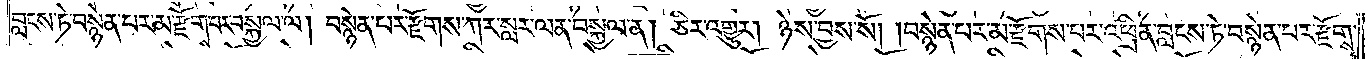བླངས་ཏེ་བསྙེན་པར་མ་རྫོགས་པར་བསྐྱལ་ལ། བསྙེན་པར་རྫོགས་ཀར་སླར་ལན་བསྐྱལ་ན། ཅིར་འགྱུར། ཉེས་བྱས་སོ། །བསྙེན་པར་མ་རྫོགས་པར་འཕྲིན་བླངས་ཏེ་བསྙེན་པར་རྫོགས་
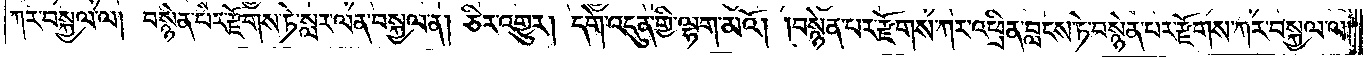ཀར་བསྐྱལ་ལ། བསྙེན་པར་རྫོགས་ཏེ་སླར་ལན་བསྐྱལ་ན། ཅིར་འགྱུར། དགེ་འདུན་གྱི་ལྷག་མའོ། །བསྙེན་པར་རྫོགས་ཀར་འཕྲིན་བླངས་ཏེ་བསྙེན་པར་རྫོགས་ཀར་བསྐྱལ་ལ༎
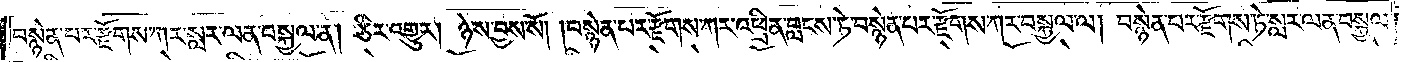བསྙེན་པར་རྫོགས་ཀར་སླར་ལན་བསྐྱལ་ན། ཅིར་འགྱུར། ཉེས་བྱས་སོ། །བསྙེན་པར་རྫོགས་ཀར་འཕྲིན་བླངས་ཏེ་བསྙེན་པར་རྫོགས་ཀར་བསྐྱལ་ལ། བསྙེན་པར་རྫོགས་ཏེ་སླར་ལན་བསྐྱལ་
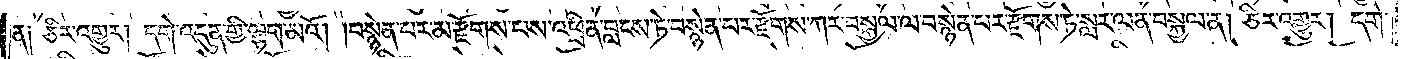ན༑ ཅིར་འགྱུར། དགེ་འདུན་གྱི་ལྷག་མའོ། །བསྙེན་པར་མ་རྫོགས་པས་འཕྲིན་བླངས་ཏེ་བསྙེན་པར་རྫོགས་ཀར་བསྐྱལ་ལ་བསྙེན་པར་རྫོགས་ཏེ་སླར་ལན་བསྐྱལ་ན། ཅིར་འགྱུར། དགེ་
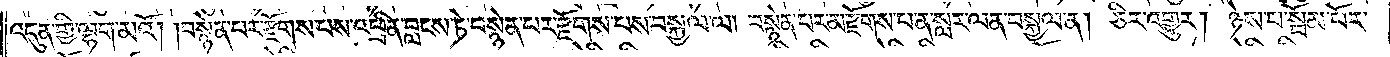འདུན་གྱི་ལྷག་མའོ། །བསྙེན་པར་རྫོགས་པས་འཕྲིན་བླངས་ཏེ་བསྙེན་པར་རྫོགས་པས་བསྐྱལ་ལ། བསྙེན་པར་མ་རྫོགས་པ་ན་སླར་ལན་བསྐྱལ་ན། ཅིར་འགྱུར། ཉེས་པ་སྦོམ་པོར་
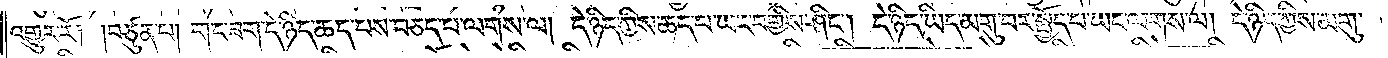འགྱུར་རོ། །བཙུན་པ། གང་ཟག་དེ་ཉིད་ཆད་པས་བཅད་པ་ལགས་ལ། དེ་ཉིད་ཀྱིས་ཆད་པ་ཡང་བགྱིད་ཤིང༌། དེ་ཉིད་ཡིད་མགུ་བར་སྤྱོད་པ་ཡང་ལགས་ལ། དེ་ཉིད་ཀྱིས་མགུ་
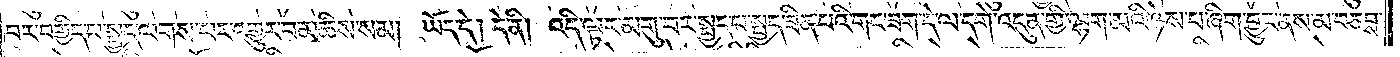བར་བགྱིད་པ་སྤྱད་ལགས་པར་འགྱུར་བ་མཆིས་སམ། ཡོད་དེ། དེ་ནི། འདི་ལྟར་མགུ་བར་སྤྱད་པ་སྤྱད་ཟིན་པའི་གང་ཟག་དེ་ལ་དགེ་འདུན་གྱི་ལྷག་མའི་ཉེས་པ་ཞིག་བྱུང་ནས་མ་བཅབས་
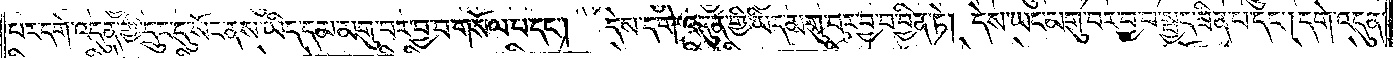པར་དགེ་འདུན་གྱི་དྲུང་དུ་སོང་ནས་ཡིད་དམ་མགུ་བར་བྱ་བ་གསོལ་བ་དང༌།<gap>དེས་དགེ་འདུན་གྱི་ཡིད་མགུ་བར་བྱ་བ་བྱིན་ཏེ། དེས་ཡང་མགུ་བར་བྱ་བ་སྤྱད་ཟིན་པ་དང༌། དགེ་འདུན་
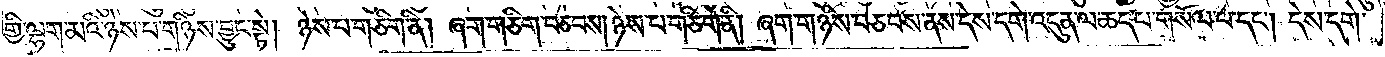གྱི་ལྷག་མའི་ཉེས་པ་གཉིས་བྱུང་སྟེ། ཉེས་པ་གཅིག་ནི། ཞག་གཅིག་བཅབས། ཉེས་པ་གཅིག་ནི། ཞག་གཉིས་བཅབས་ནས་དེས་དགེ་འདུན་ལ་ཆད་པ་གསོལ་པ་དང༌། དེས་དགེ་
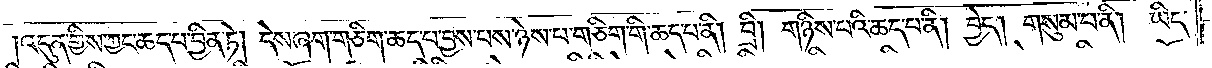།འདུན་གྱིས་ཀྱང་ཆད་པ་བྱིན་ཏེ། དེས་ཞག་གཅིག་ཆད་པ་བྱས་པས་ཉེས་པ་གཅིག་གི་ཆད་པ་ནི། བྲི། གཉིས་པའི་ཆད་པ་ནི། བྱེད། གསུམ་པ་ནི། ཡིད་
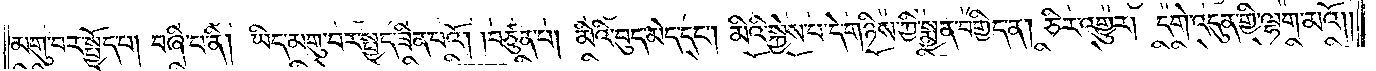མགུ་བར་སྤྱོད་པ། བཞི་པ་ནི། ཡིད་མགུ་བར་སྤྱད་ཟིན་པའོ། །བཙུན་པ། མིའི་བུད་མེད་དང༌། མིའི་སྐྱེས་པ་དེ་གཉིས་ཀྱི་སྨྱན་བགྱིད་ན། ཅིར་འགྱུར། དགེ་འདུན་གྱི་ལྷག་མའོ། །
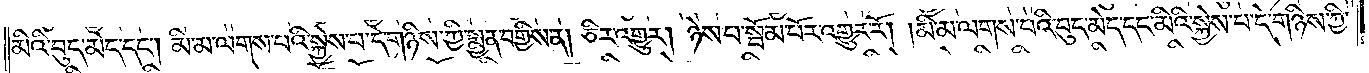མིའི་བུད་མེད་དང༌། མི་མ་ལགས་པའི་སྐྱེས་པ་དེ་གཉིས་ཀྱི་སྨྱན་བགྱིས་ན། ཅིར་འགྱུར། ཉེས་པ་སྦོམ་པོར་འགྱུར་རོ། །མི་མ་ལགས་པའི་བུད་མེད་དང་མིའི་སྐྱེས་པ་དེ་གཉིས་ཀྱི་
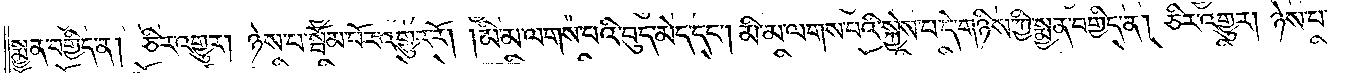སྨྱན་བགྱིད་ན། ཅིར་འགྱུར། ཉེས་པ་སྦོམ་པོར་འགྱུར་རོ། །མི་མ་ལགས་པའི་བུད་མེད་དང༌། མི་མ་ལགས་པའི་སྐྱེས་པ་དེ་གཉིས་ཀྱི་སྨྱན་བགྱིད་ན། ཅིར་འགྱུར། ཉེས་པ་
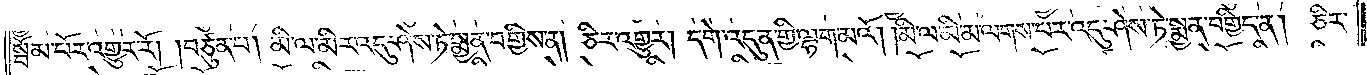སྦོམ་པོར་འགྱུར་རོ། །བཙུན་པ། མི་ལ་མིར་འདུ་ཤེས་ཏེ་སྨྱན་བགྱིས་ན། ཅིར་འགྱུར། དགེ་འདུན་གྱི་ལྷག་མའོ། །མི་ལ་མི་མ་ལགས་པར་འདུ་ཤེས་ཏེ་སྨྱན་བགྱིད་ན། ཅིར་
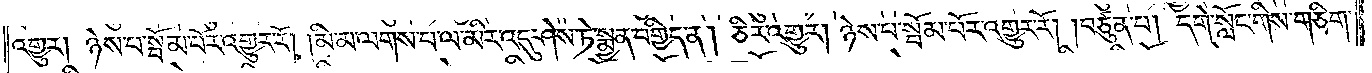འགྱུར། ཉེས་པ་སྦོམ་པོར་འགྱུར་རོ། །མི་མ་ལགས་པ་ལ་མིར་འདུ་ཤེས་ཏེ་སྨྱན་བགྱིད་ན། ཅིར་འགྱུར། ཉེས་པ་སྦོམ་པོར་འགྱུར་རོ། །བཙུན་པ། དགེ་སློང་གིས་གཅིག་
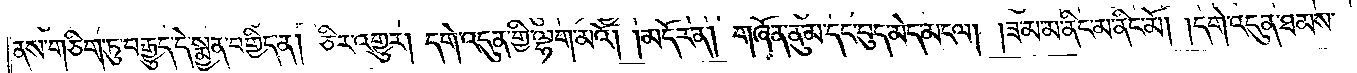ནས་གཅིག་ཏུ་བརྒྱུད་དེ་སྨྱན་བགྱིད་ན། ཅིར་འགྱུར། དགེ་འདུན་གྱི་ལྷག་མའོ། །མདོར་ན། གཞོན་ནུ་མ་དང་བུད་མེད་མངལ། །ཟ་མ་མ་ནིང་མ་ནིང་མོ། །དགེ་འདུན་ཐམས་
